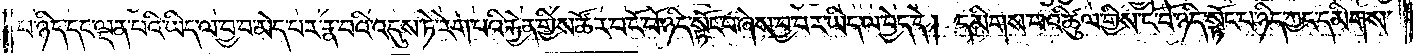པ་ཉིད་དང་ལྡན་པའི་ཡིད་ལ་བྱ་བ་མེད་པར་རྣ་བའི་འདུས་ཏེ་རེག་པའི་རྐྱེན་གྱིས་ཚོར་བ་ངོ་བོ་ཉིད་སྟོང་པ་ཞེས་བྱ་བར་ཡིད་ལ་བྱེད་དེ། དམིགས་པའི་ཚུལ་གྱིས་ངོ་བོ་ཉིད་སྟོང་པ་ཉིད་ཀྱང་དམིགས་
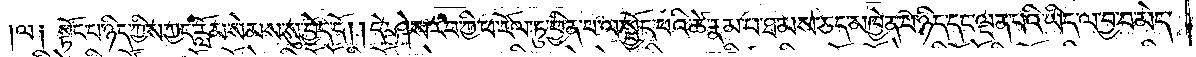ལ། སྟོང་པ་ཉིད་ཀྱིས་ཀྱང་རློམ་སེམས་སུ་བྱེད་དོ། །དེ་ཤེས་རབ་ཀྱི་ཕ་རོལ་ཏུ་ཕྱིན་པ་ལ་སྤྱོད་པའི་ཚེ་རྣམ་པ་ཐམས་ཅད་མཁྱེན་པ་ཉིད་དང་ལྡན་པའི་ཡིད་ལ་བྱ་བ་མེད་
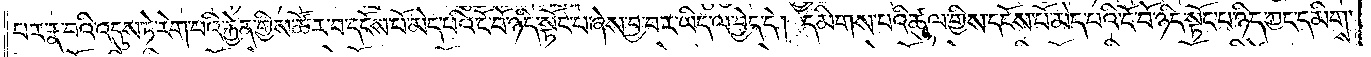པར་རྣ་བའི་འདུས་ཏེ་རེག་པའི་རྐྱེན་གྱིས་ཚོར་བ་དངོས་པོ་མེད་པའི་ངོ་བོ་ཉིད་སྟོང་པ་ཞེས་བྱ་བར་ཡིད་ལ་བྱེད་དེ། དམིགས་པའི་ཚུལ་གྱིས་དངོས་པོ་མེད་པའི་ངོ་བོ་ཉིད་སྟོང་པ་ཉིད་ཀྱང་དམིགས་
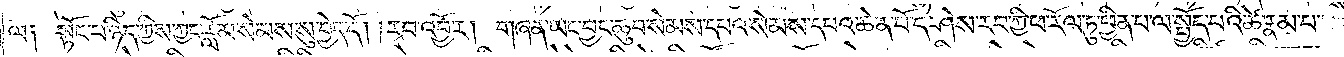ལ༑ སྟོང་པ་ཉིད་ཀྱིས་ཀྱང་རློམ་སེམས་སུ་བྱེད་དོ། །རབ་འབྱོར། གཞན་ཡང་བྱང་ཆུབ་སེམས་དཔའ་སེམས་དཔའ་ཆེན་པོ་དེ་ཤེས་རབ་ཀྱི་ཕ་རོལ་ཏུ་ཕྱིན་པ་ལ་སྤྱོད་པའི་ཚེ་རྣམ་པ་
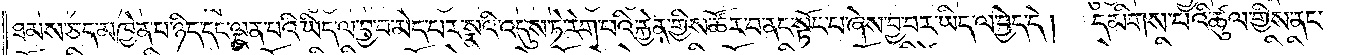ཐམས་ཅད་མཁྱེན་པ་ཉིད་དང་ལྡན་པའི་ཡིད་ལ་བྱ་བ་མེད་པར་སྣའི་འདུས་ཏེ་རེག་པའི་རྐྱེན་གྱིས་ཚོར་བ་ནང་སྟོང་པ་ཞེས་བྱ་བར་ཡིད་ལ་བྱེད་དེ། དམིགས་པའི་ཚུལ་གྱིས་ནང་
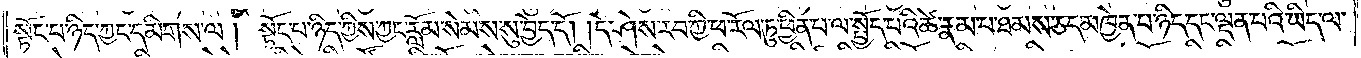སྟོང་པ་ཉིད་ཀྱང་དམིགས་ལ། སྟོང་པ་ཉིད་ཀྱིས་ཀྱང་རློམ་སེམས་སུ་བྱེད་དོ། །དེ་ཤེས་རབ་ཀྱི་ཕ་རོལ་ཏུ་ཕྱིན་པ་ལ་སྤྱོད་པའི་ཚེ་རྣམ་པ་ཐམས་ཅད་མཁྱེན་པ་ཉིད་དང་ལྡན་པའི་ཡིད་ལ་
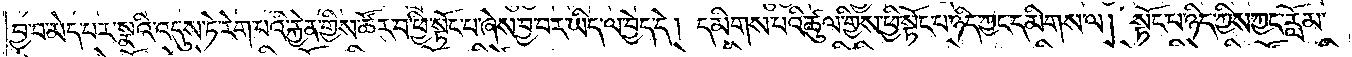བྱ་བ་མེད་པར་སྣའི་འདུས་ཏེ་རེག་པའི་རྐྱེན་གྱིས་ཚོར་བ་ཕྱི་སྟོང་པ་ཞེས་བྱ་བར་ཡིད་ལ་བྱེད་དེ། དམིགས་པའི་ཚུལ་གྱིས་ཕྱི་སྟོང་པ་ཉིད་ཀྱང་དམིགས་ལ། སྟོང་པ་ཉིད་ཀྱིས་ཀྱང་རློམ་
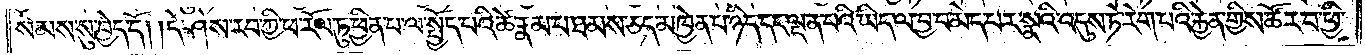སེམས་སུ་བྱེད་དོ། །དེ་ཤེས་རབ་ཀྱི་ཕ་རོལ་ཏུ་ཕྱིན་པ་ལ་སྤྱོད་པའི་ཚེ་རྣམ་པ་ཐམས་ཅད་མཁྱེན་པ་ཉིད་དང་ལྡན་པའི་ཡིད་ལ་བྱ་བ་མེད་པར་སྣའི་འདུས་ཏེ་རེག་པའི་རྐྱེན་གྱིས་ཚོར་བ་ཕྱི་
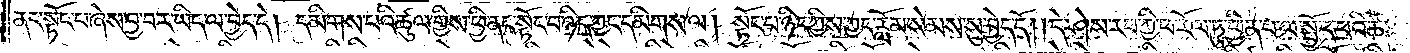ནང་སྟོང་པ་ཞེས་བྱ་བར་ཡིད་ལ་བྱེད་དེ། དམིགས་པའི་ཚུལ་གྱིས་ཕྱི་ནང་སྟོང་པ་ཉིད་ཀྱང་དམིགས་ལ། སྟོང་པ་ཉིད་ཀྱིས་ཀྱང་རློམ་སེམས་སུ་བྱེད་དོ། །དེ་ཤེས་རབ་ཀྱི་ཕ་རོལ་ཏུ་ཕྱིན་པ་ལ་སྤྱོད་པའི་ཚེ་
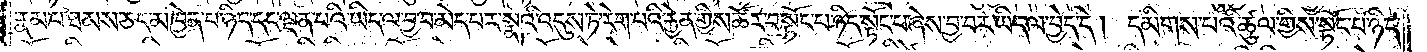རྣམ་པ་ཐམས་ཅད་མཁྱེན་པ་ཉིད་དང་ལྡན་པའི་ཡིད་ལ་བྱ་བ་མེད་པར་སྣའི་འདུས་ཏེ་རེག་པའི་རྐྱེན་གྱིས་ཚོར་བ་སྟོང་པ་ཉིད་སྟོང་པ་ཞེས་བྱ་བར་ཡིད་ལ་བྱེད་དེ། དམིགས་པའི་ཚུལ་གྱིས་སྟོང་པ་ཉིད་
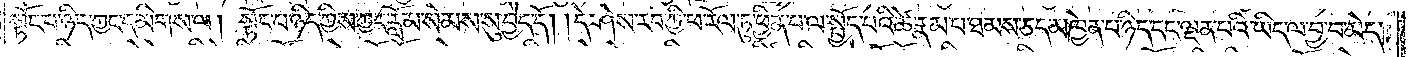སྟོང་པ་ཉིད་ཀྱང་དམིགས་ལ། སྟོང་པ་ཉིད་ཀྱིས་ཀྱང་རློམ་སེམས་སུ་བྱེད་དོ། །དེ་ཤེས་རབ་ཀྱི་ཕ་རོལ་ཏུ་ཕྱིན་པ་ལ་སྤྱོད་པའི་ཚེ་རྣམ་པ་ཐམས་ཅད་མཁྱེན་པ་ཉིད་དང་ལྡན་པའི་ཡིད་ལ་བྱ་བ་མེད་
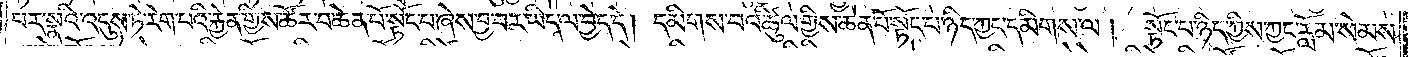པར་སྣའི་འདུས་ཏེ་རེག་པའི་རྐྱེན་གྱིས་ཚོར་བ་ཆེན་པོ་སྟོང་པ་ཞེས་བྱ་བར་ཡིད་ལ་བྱེད་དེ། དམིགས་པའི་ཚུལ་གྱིས་ཆེན་པོ་སྟོང་པ་ཉིད་ཀྱང་དམིགས་ལ། སྟོང་པ་ཉིད་ཀྱིས་ཀྱང་རློམ་སེམས་
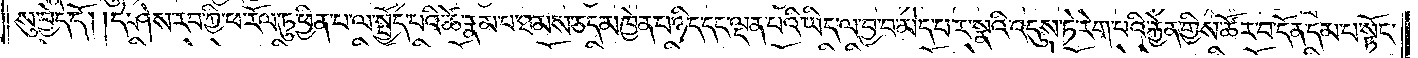སུ་བྱེད་དོ། །དེ་ཤེས་རབ་ཀྱི་ཕ་རོལ་ཏུ་ཕྱིན་པ་ལ་སྤྱོད་པའི་ཚེ་རྣམ་པ་ཐམས་ཅད་མཁྱེན་པ་ཉིད་དང་ལྡན་པའི་ཡིད་ལ་བྱ་བ་མེད་པར་སྣའི་འདུས་ཏེ་རེག་པའི་རྐྱེན་གྱིས་ཚོར་བ་དོན་དམ་པ་སྟོང་
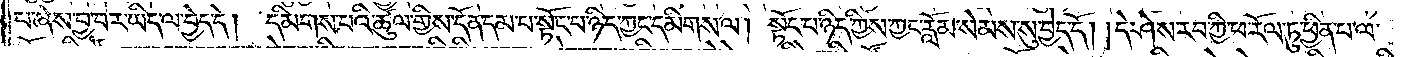པ་ཞེས་བྱ་བར་ཡིད་ལ་བྱེད་དེ། དམིགས་པའི་ཚུལ་གྱིས་དོན་དམ་པ་སྟོང་པ་ཉིད་ཀྱང་དམིགས་ལ། སྟོང་པ་ཉིད་ཀྱིས་ཀྱང་རློམ་སེམས་སུ་བྱེད་དོ། །དེ་ཤེས་རབ་ཀྱི་ཕ་རོལ་ཏུ་ཕྱིན་པ་ལ་
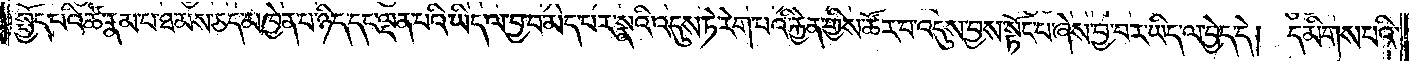སྤྱོད་པའི་ཚེ་རྣམ་པ་ཐམས་ཅད་མཁྱེན་པ་ཉིད་དང་ལྡན་པའི་ཡིད་ལ་བྱ་བ་མེད་པར་སྣའི་འདུས་ཏེ་རེག་པའི་རྐྱེན་གྱིས་ཚོར་བ་འདུས་བྱས་སྟོང་པ་ཞེས་བྱ་བར་ཡིད་ལ་བྱེད་དེ། དམིགས་པའི་
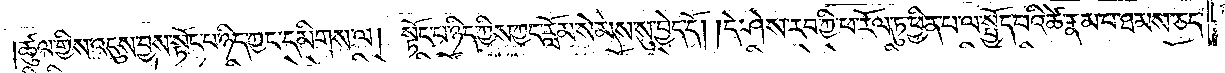ཚུལ་གྱིས་འདུས་བྱས་སྟོང་པ་ཉིད་ཀྱང་དམིགས་ལ། སྟོང་པ་ཉིད་ཀྱིས་ཀྱང་རློམ་སེམས་སུ་བྱེད་དོ། །དེ་ཤེས་རབ་ཀྱི་ཕ་རོལ་ཏུ་ཕྱིན་པ་ལ་སྤྱོད་པའི་ཚེ་རྣམ་པ་ཐམས་ཅད་
